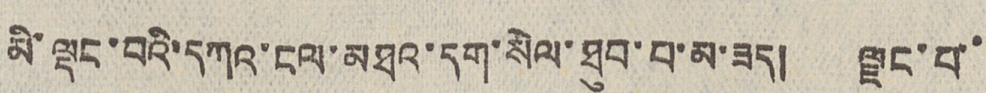མི་ལྡང་བའི་དཀའ་ངལ་མཐའ་དག་སེལ་ཐུབ་པ་མ་ཟད། ལྗང་པ་་་
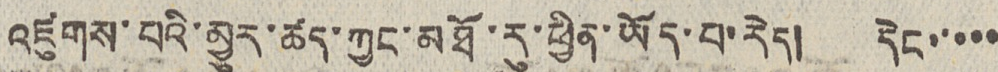འཛུགས་པའི་མྱུར་ཚད་ཀྱང་མཐོ་རུ་ཕྱིན་ཡོད་པ་རེད། དེང་་་་་
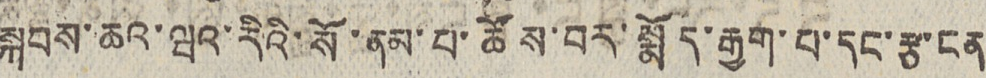སྐབས་ཆའ་ཝའ་རིའི་སོ་ནམ་པ་ཚོས་བར་སྨོད་རྒྱག་པ་དང་རྩ་ངན
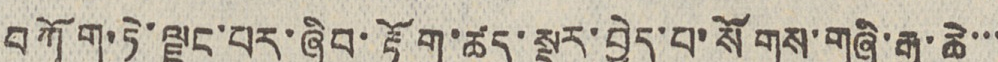བཀོག་ཏེ་ལྗང་པར་ཞིབ་རྟོག་ཚད་སྡུར་བྱེད་པ་སོགས་གཞི་རྒྱ་ཆེ་་་
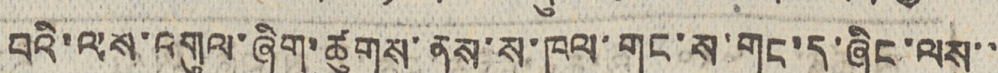བའི་ལས་འགུལ་ཞིག་ཚུགས་ནས་ས་ཁུལ་གང་ས་གང་དུ་ཞིང་ལས་་
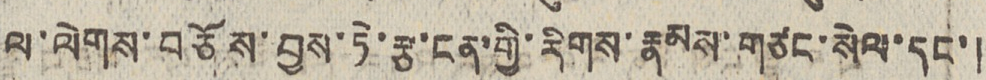ལ་ལེགས་བཅོས་བྱས་ཏེ་རྩ་ངན་གྱི་རིགས་རྣམས་གཙང་སེལ་དང་།
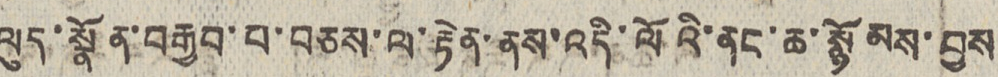ལུད་སྣོན་བརྒྱབ་པ་བཅས་ལ་རྟེན་ནས་འདི་ལོའི་ནང་ཆ་སྙོམས་བྱས
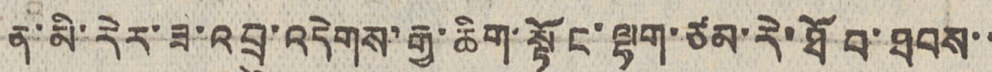ན་མི་རེར་ཟ་འབྲུ་འདེགས་རྒྱ་ཆིག་སྟོང་ལྷག་ཙམ་རེ་ཐོབ་ཐབས་་
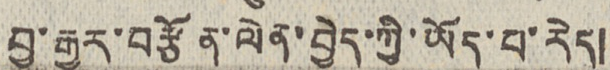བྱ་རྒྱུར་བརྩོན་ལེན་བྱེད་ཀྱི་ཡོད་པ་རེད།
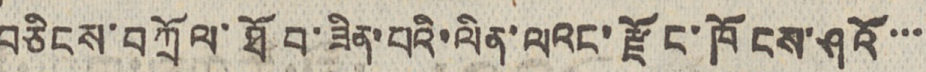བཅིངས་བཀྲོལ་ཐོབ་ཟིན་པའི་ལིན་ལའང་རྫོང་ཁོངས་ཤའོ་་་
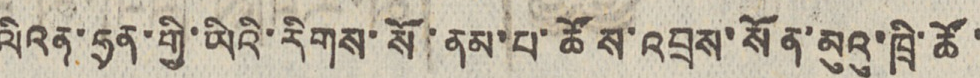ལིའན་ཧྲན་གྱི་ཡིའི་རིགས་སོ་ནམ་པ་ཚོས་འབྲས་སོན་མུའུ་ཁྲི་ཚོ་
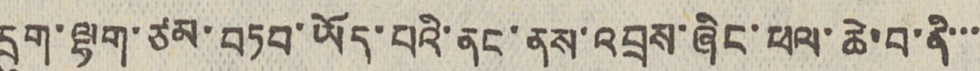དྲུག་ལྷག་ཙམ་བཏབ་ཡོད་པའི་ནང་ནས་འབྲས་ཞིང་ཕལ་ཆེ་བ་ནི་་་
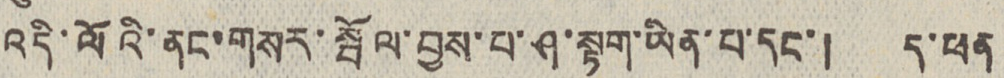འདི་ལོའི་ནང་གསར་སྦོལ་བྱས་པ་ཤ་སྟག་ཡིན་པ་དང་། ད་ཕན
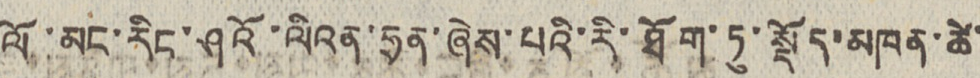ལོ་མང་རིང་ཤའོ་ལིའན་ཧྲན་ཞེས་པའི་རི་ཐོག་ཏུ་སྡོད་མཁན་ཚེ་
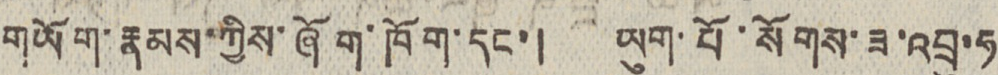གཡོག་རྣམས་ཀྱིས་ཞོག་ཁོག་དང་། ཡུག་པོ་སོགས་ཟ་འབྲུ་ཧ
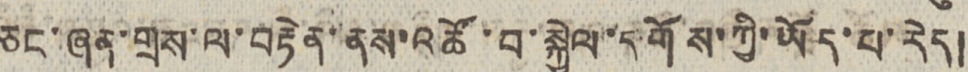ཅང་ཞན་གྲས་ལ་བརྟེན་ནས་འཚོ་བ་སྐྱེལ་དགོས་ཀྱི་ཡོད་པ་རེད།
